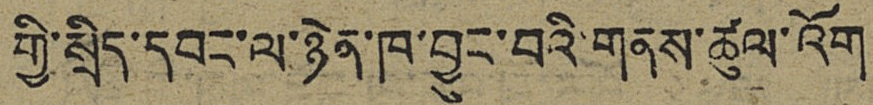གྱི་སྲིད་དབང་ལ་ཉེན་ཁ་བྱུང་བའི་གནས་ཚུལ་འོག
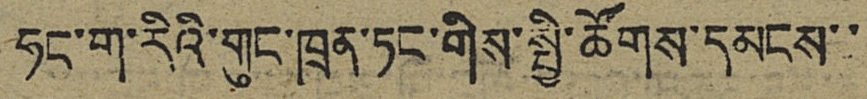ཧང་ག་རིའི་གུང་ཁྲན་ཏང་གིས་སྤྱི་ཚོགས་དམངས་་
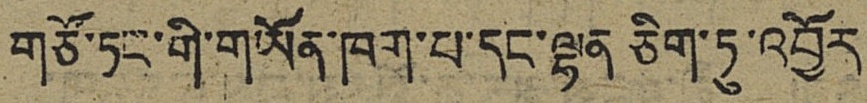གཙོ་ཏང་གི་གཡོན་ཁག་པ་དང་ལྷན་ཅིག་ཏུ་འབྱོར
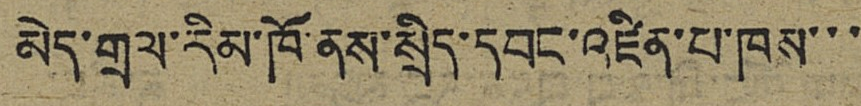མེད་གྲལ་རིམ་ཁོ་ནས་སྲིད་དབང་འཛིན་པ་ཁས་་་
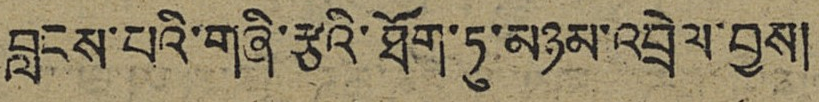བླངས་པའི་གཞི་རྩའི་ཐོག་ཏུ་མཉམ་འབྲེལ་བྱས།
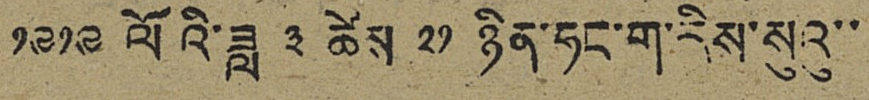༡༩༡༩ ལོའི་ཟླ ༣ ཚེས ༢༡ ཉིན་ཧང་ག་རིས་སུའུ་་
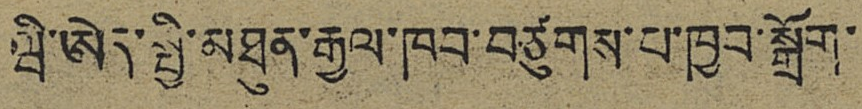ཝི་ཨེད་སྤྱི་མཐུན་རྒྱལ་ཁབ་བཙུགས་པ་ཁྱབ་སྒྲོག་
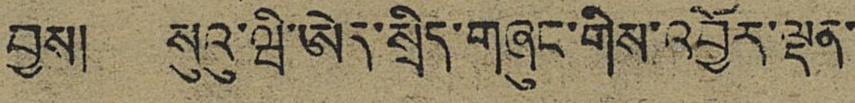བྱས། སུའུ་ཝི་ཨེད་སྲིད་གཞུང་གིས་འབྱོར་ལྡན་
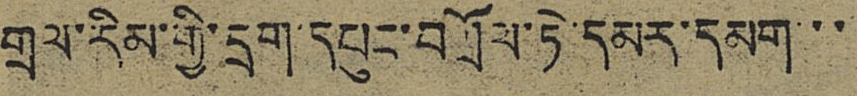གྲལ་རིམ་གྱི་དྲག་དཔུང་བགྲོལ་ཏེ་དམར་དམག་་
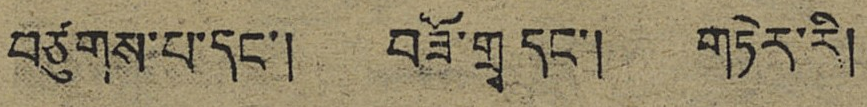བཙུགས་པ་དང་། བཟོ་གྲྭ་དང་། གཏེར་རི།
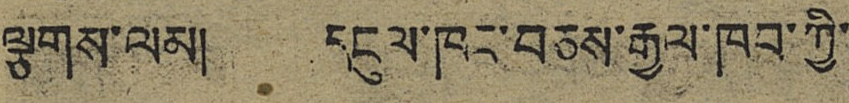ལྕགས་ལམ། དངུལ་ཁང་བཅས་རྒྱལ་ཁབ་ཀྱི་
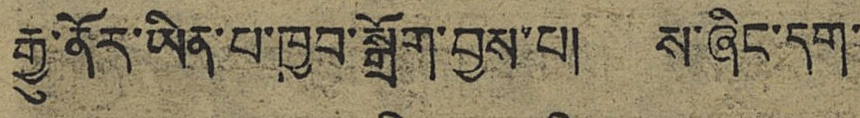རྒྱུ་ནོར་ཡིན་པ་ཁྱབ་སྒྲོག་བྱས་པ། ས་ཞིང་དག་
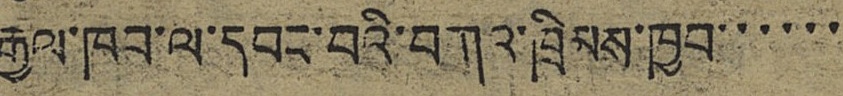རྒྱལ་ཁབ་ལ་དབང་བའི་བཀའ་ཁྲིམས་ཁྱབ་་་་་་
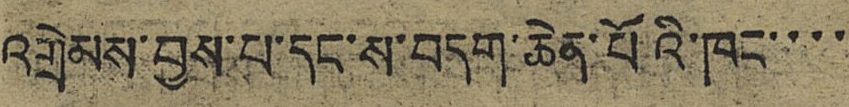འགྲེམས་བྱས་པ་དང་ས་བདག་ཆེན་པོའི་ཁང་་་་
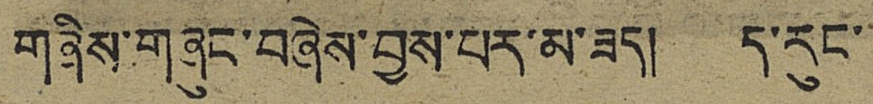གཞིས་གཞུང་བཞེས་བྱས་པར་མ་ཟད། ད་རུང་
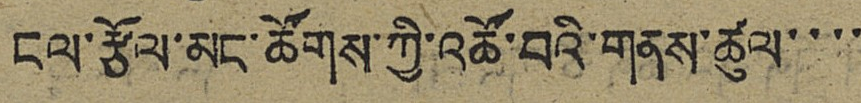ངལ་རྩོལ་མང་ཚོགས་ཀྱི་འཚོ་བའི་གནས་ཚུལ་་་་
